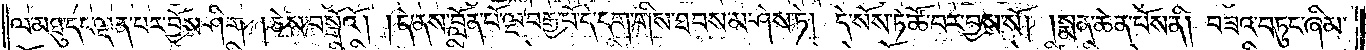ལ་མཐུ་དང་ལྡན་པར་བྱོས་ཤིག །ཅེས་བསྒོའོ། །དེ་ནས་བློན་པོ་ལྔ་བརྒྱ་པོ་དེ་དག་གིས་ཐབས་མ་ཤེས་ཏེ། དེ་སོས་ཏེ་ཚོ་བར་བྱས་སོ། །སྨན་ཆེན་པོས་ནི། བཟའ་བཏུང་ཞིམ་
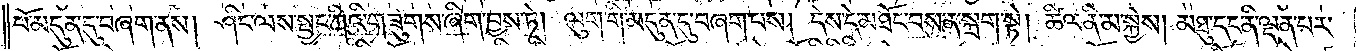པོ་མདུན་དུ་བཞག་ནས། ཤིང་ལས་སྤྱང་ཀིའི་གཟུགས་ཞིག་བྱས་ཏེ། ལུག་གི་མདུན་དུ་བཞག་པས། དེས་དེ་མཐོང་བས་ན་སྐྲག་སྟེ། ཚིལ་ནི་མ་སྐྱེས། མཐུ་དང་ནི་ལྡན་པར་
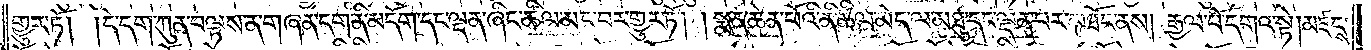གྱུར་ཏོ། །དེ་དག་ཀུན་བལྟས་ན་གཞན་དག་ནི་མདོག་དང་ལྡན་ཞིང་ཚིལ་མང་བར་གྱུར་ཏོ། །སྨན་ཆེན་པོའི་ནི་ཚིལ་མེད་ལ་མཐུ་དང་ལྡན་པར་མཐོང་ནས། རྒྱལ་པོ་དགའ་སྟེ། མཛངས་
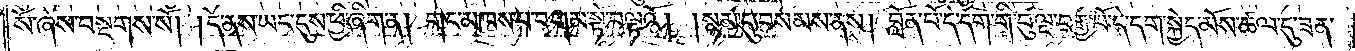སོ་ཞེས་བསྔགས་སོ། །དེ་ནས་ཡང་དུས་ཕྱི་ཞིག་ན། གང་མཁས་པ་བགམ་སྟེ་བལྟའོ། །སྙམ་དུ་བསམས་ནས། བློན་པོ་དེ་དག་གི་བུ་ལྔ་བརྒྱ་པོ་དེ་དག་སྐྱེད་མོས་ཚལ་དུ་ཟན་
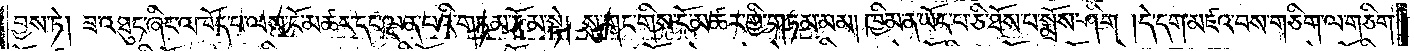བྱས་ཏེ། ཟ་འཐུང་ཞིང་འཁོད་པ་ལས་ངོ་མཚར་དང་ལྡན་པའི་གཏམ་རྩོམ་སྟེ། སུ་གང་གིས་ངོ་མཚར་གྱི་གཏམ་མམ། ཁྱིམ་ན་ཡོད་པ་ཅི་ཐོས་པ་སྨྲོས་ཤིག །དེ་དག་མཛའ་བས་གཅིག་ལ་གཅིག་
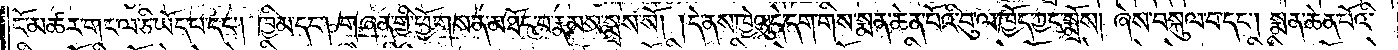ངོ་མཚར་གང་ལ་ཅི་ཡོད་པ་དང༌། ཁྱིམ་དང༌། གཞན་གྱི་ཕྱོགས་ན་མཐོང་བ་རྣམས་སྨྲས་སོ། །དེ་ནས་ཁྱེའུ་དེ་དག་གིས་སྨན་ཆེན་པོའི་བུ་ལ་ཁྱོད་ཀྱང་སྨྲོས། ཞེས་བསྐུལ་བ་དང༌། སྨན་ཆེན་པོའི་
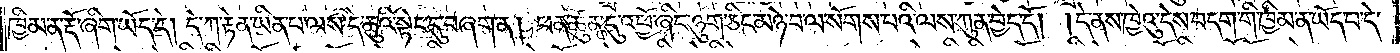ཁྱིམ་ན་རྡོ་ཞིག་ཡོད་དེ། དེ་ཀ་རྟེན་ཡིན་པ་ལས་དེ་ཆུའི་སྟེང་དུ་བཞག་ན། ཕན་ཚུན་དུ་འཕྱོ་ཞིང་ཉུག་ཅིང་མཉེ་བ་ལ་སོགས་པའི་ལས་ཀུན་བྱེད་དོ། །དེ་ནས་ཁྱེའུ་དེས་བདག་གི་ཁྱིམ་ན་ཡོད་པ་དེ་
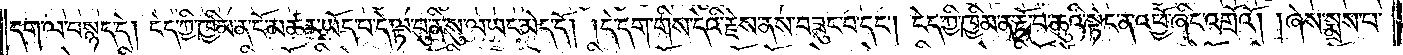དག་ལ་བསྙད་དེ། ངེད་ཀྱི་ཁྱིམ་ན་ངོ་མཚར་ཡོད་པ་དེ་ལྟ་བུ་ནི་སུ་ལ་ཡང་མེད་དོ། །དེ་དག་གིས་དེའི་རྗེས་ནས་བཟུང་བ་དང༌། ངེད་ཀྱི་ཁྱིམ་ན་རྡོ་བ་ཆུའི་སྟེང་ན་འཕྱོ་ཞིང་འགྲོའོ། །ཞེས་སྨྲས་པ་
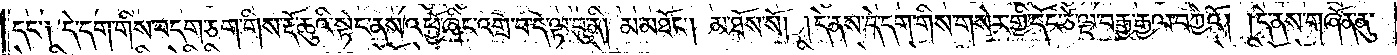དང་༑ དེ་དག་གིས་བདག་ཅག་གིས་རྡོ་ཆུའི་སྟེང་ནས་འཕྱོ་ཞིང་འགྲོ་བ་དེ་ལྟ་བུ་ནི། མ་མཐོང༌། མ་ཐོས་སོ། །དེ་ནས་དེ་དག་གིས་གསེར་གྱི་དོང་ཙེ་ལྔ་བརྒྱ་རྒྱལ་བ་ཀྱེའོ། །དེ་ནས་གཞོན་ནུ་
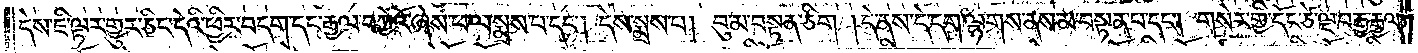དེས་ཇི་ལྟར་གྱུར་ཅིང་དེའི་ཕྱིར་བདག་དང་རྒྱལ་བཀྱེའོ་ཞེས་ཕ་ལ་སྨྲས་པ་དང༌། དེས་སྨྲས་པ། བུ་མ་བསྟན་ཅིག །དེ་ནས་དེ་དག་ལྷགས་ནས་མ་བསྟན་པ་དང༌། གསེར་གྱི་དོང་ཙེ་ལྔ་བརྒྱ་རྒྱལ་
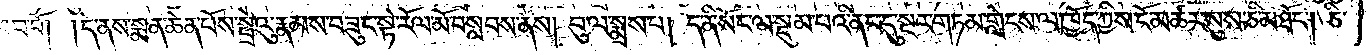དུ་བབ་བོ། །དེ་ནས་སྨན་ཆེན་པོས་སྤྲེའུ་རྣམས་བཟུང་སྟེ་རོལ་མོ་བསླབས་ནས། བུ་ལ་སྨྲས་པ། ད་ནི་སོང་ལ་སྡུམ་པའི་ནང་དུ་སྔར་གཏམ་གླེངས་ལ་ཁྱོད་ཀྱིས་ངོ་མཚར་སུས་ཅི་མཐོང༌། ཅི་
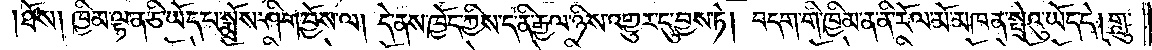ཐོས། ཁྱིམ་ལྟ་ན་ཅི་ཡོད་པ་སྨྲོས་ཤིག་བྱོས་ལ། དེ་ནས་ཁྱོད་ཀྱིས་ད་ནི་རྒྱལ་ཉིས་འགྱུར་དུ་བྱས་ཏེ། བདག་གི་ཁྱིམ་ན་ནི་རོལ་མོ་མཁན་སྤྲེའུ་ཡོད་དེ། གླུ་
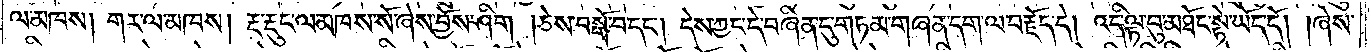ལ་མཁས། གར་ལ་མཁས། རྔ་རྡུང་ལ་མཁས་སོ་ཞེས་བྱོས་ཤིག །ཅེས་བསྒོ་བ་དང༌། དེས་ཀྱང་དེ་བཞིན་དུ་གཏམ་གཞན་དག་ལ་བརྗོད་དེ། འདི་ལྟ་བུ་མཐོང་སྟེ་ཡོད་དོ། །ཞེས་
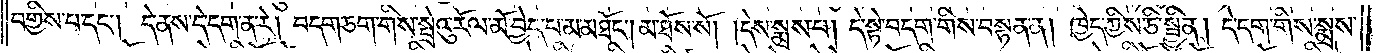བགྱིས་པ་དང༌། དེ་ནས་དེ་དག་ན་རེ། བདག་ཅག་གིས་སྤྲེའུ་རོལ་མོ་བྱེད་པ་མ་མཐོང༌། མ་ཐོས་སོ། །དེས་སྨྲས་པ། དེ་སྟེ་བདག་གིས་བསྟན་ན། ཁྱེད་ཀྱིས་ཅི་སྦྱིན། དེ་དག་གིས་སྨྲས་
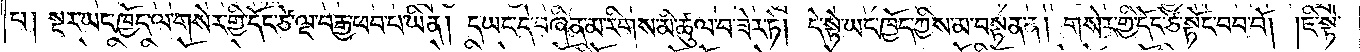པ། སྔར་ཡང་ཁྱོད་ལ་གསེར་གྱི་དོང་ཙེ་ལྔ་བརྒྱ་ཕབ་པ་ཡིན། ད་ཡང་དེ་བཞིན་མ་རིགས་མི་ཚུལ་བ་ཟེར་ཏེ། དེ་སྟེ་ཡང་ཁྱོད་ཀྱིས་མ་བསྟན་ན། གསེར་གྱི་དོང་ཙེ་སྟོང་བབ་བོ། །ཇི་སྟེ་
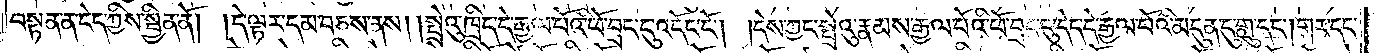བསྟན་ན་ངེད་ཀྱིས་སྦྱིན་ནོ། །དེ་ལྟར་དམ་བཅས་ནས། །སྤྲེའུ་ཁྲིད་དེ་རྒྱལ་པོའི་ཕོ་བྲང་དུ་འདོང་ངོ༌། །དེས་ཀྱང་སྤྲེའུ་རྣམས་རྒྱལ་པོའི་ཕོ་བྲང་བུ་དེད་དེ་རྒྱལ་པོའི་མདུན་དུ་གླུ་དང༌། གར་དང་
